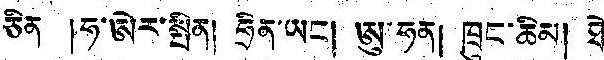ཅིན །ཧ་ཨེར་སྤིན། ཧྲིན་ཡང་། ཨུ་ཧན། ཁྲུང་ཆིམ། ཐེ
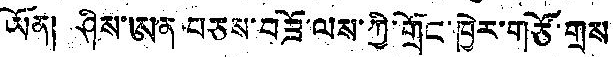ཡོན། ཤིས་ཨན་བཅས་བཟོ་ལས་ཀྱི་གྲོང་ཁྱེར་གཙོ་གྲས
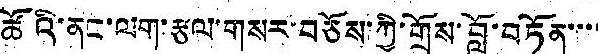ཚོའི་ནང་ལག་རྩལ་གསར་བཅོས་ཀྱི་གྲོས་བློ་བཏོན་་་་
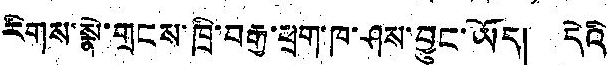རིགས་སྣེ་གྲངས་ཁྲི་བརྒྱ་ཕྲག་ཁ་ཤས་བྱུང་ཡོད། དེའི
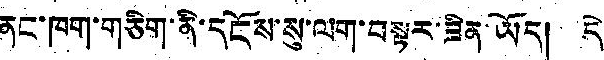ནང་ཁག་གཅིག་ནི་དངོས་སུ་ལག་བསྟར་ཟིན་ཡོད། དེ
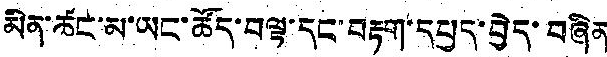མིན་ཚང་མ་ཡང་ཚོད་བལྟ་དང་བརྟག་དཔྱད་བྱེད་བཞིན
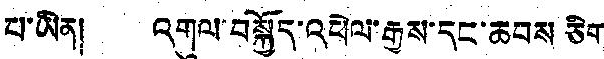པ་ཡིན། འགུལ་བསྐྱོད་འཕེལ་རྒྱས་དང་ཆབས ཅིག
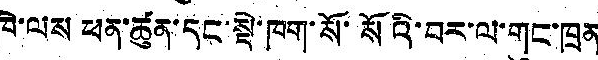ཁེ་ལས ཕན་ཚུན་དང་སྡེ་ཁག་སོ་སོའི་བར་ལ་གུང་ཁྲན
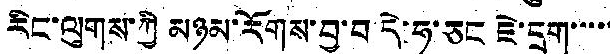རིང་ལུགས་ཀྱི མཉམ་རོགས་བྱ་བ དེ་ཧ་ཅང ཇེ་དྲག་་་་་
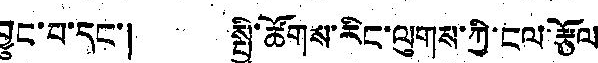བྱུང་བ་དང་། སྤྱི་ཚོགས་རིང་ལུགས་ཀྱི་ངལ་རྩོལ
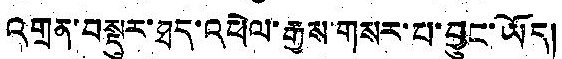འགྲན་བསྡུར་ཐད་འཕེལ་རྒྱས་གསར་པ་བྱུང་ཡོད།
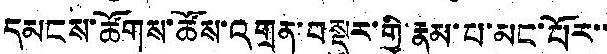དམངས་ཚོགས་ཚོས་འགྲན་བསྡུར་གྱི་རྣམ་པ་མང་པོར་་
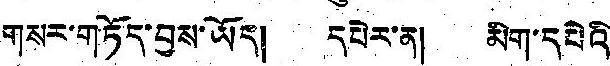གསར་གཏོད་བྱས་ཡོད། དཔེར་ན། མིག་དཔེའི
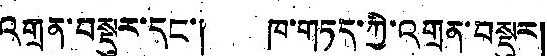འགྲན་བསྡུར་དང་། ཁ་གཏད་ཀྱི་འགྲན་བསྡུར།
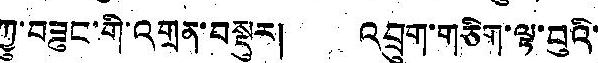ཀྱུ་བཟུང་གི་འགྲན་བསྡུར། འབྲུག་གཅིག་ལྟ་བུའི་
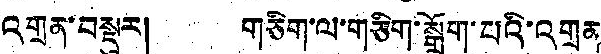འགྲན་བསྡུར། གཅིག་ལ་གཅིག་སྒྲོག་པའི་འགྲན་
